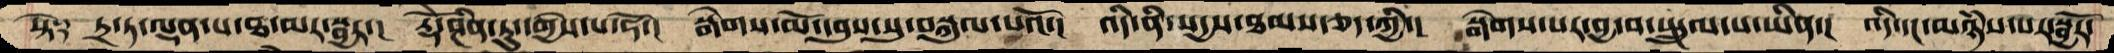སྟེ༑  ཏྲ་ཏ་ལྡན་པ་ཐ་མར་སྦྱར་།  རྡོེ་ཤིན་ཏུ་དགྱེས་པ་ཧོ་།  སྒེགས་མོ་དབུས་སུ་བསྐུལ་པའོ་།  འདི་ནི་སདྱས་ཐམས་ཅད་ཀྱི་།  སྒེགས་པར་བྱ་བ་སྤྲུལ་པ་ཡིན་།  འདི་དང་མཉཾས་པར་སྦྱོར་
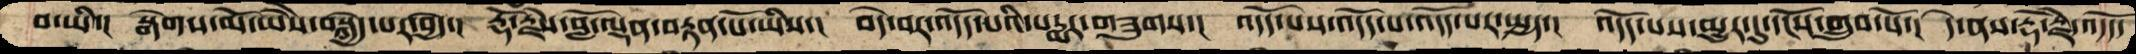བ་ཡི་།  སྒེགས་མོ་ཡཻས་བསྐྱེད་པར་བྱེད་།  རྡོ་རྗེས་བློ་ལྡན་བརྟན་པོ་ཡིས་།  བདེ་བར་འདོད་པའི་པདྨར་གཟུགས་།  འདོད་པས་འདོད་པ་འདོད་པར་སྤྱད་།  འདོད་པས་མྱུར་དུ་དངོས་གྲུབ་པོ་།  དེ་ནས་རྡོ་རྗེ་འདོད་
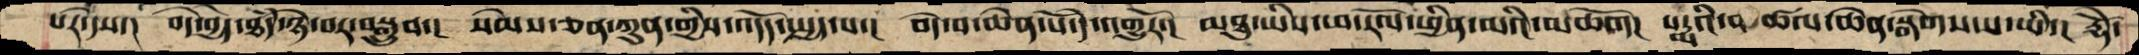པར་དེས་།  བདེ་བྱེད་ཐཾད་ཉེ་བར་བསྒྲུབ་།  སེམས་ཅན་ཀུན་གྱིས་འདོད་སྤྱད་པ་།  བདེ་བ་ཆེན་པོ་དེ་འགྱུརོ་།  མཐུ་ཡིས་ཕ་རོལ་ཕྱིན་མའི་མཆོག།  པདྨའི་ཚལ་ཆེན་སྒེགས་པ་ཡི་།  རྡོེ་
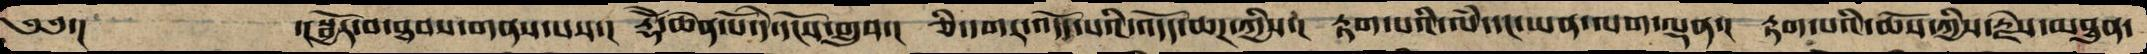༄༅་།         ་།སྦྱོར་བ་ཐབས་གནས་པས་།  རྡོེ་ཆེན་པོ་དེ་དངོས་གྲུབ་།  ཅི་དགར་འདོད་པའི་འདོད་ཆཌ་ཀྱིས་།  རྟག་པའི་ལཾ་དང་ཡན་ལག་ལྡན་།  རྟག་པའི་ཆོས་ཀྱིས་རྗེས་མཐུན་
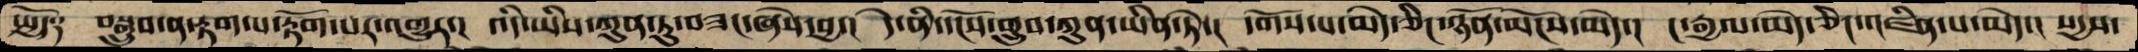སྤྱོད༑  བསྒྲུབ་ན་རྟག་པ་རྟོག་པར་འགྱུར་།  འདི་ཡིས་ཀུན་ཏུ་བཟང་ཞེས་བྱ་།  དེ་ནི་དངོས་གྲུབ་ཀུན་ཡིན་ཏེ་།  དགོས་པ་མེད་ཅིང་ཉོན་མོངས་མེད་།  ང་རྒྱལ་མེད་ཅིང་འཛིན་པ་མེད་།  སདྱས་
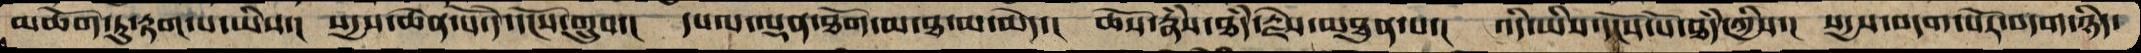མཆོག་ཏུ་རྟག་པ་ཡིས་།  སདྱས་ཆེན་པོ་དེ་དངོས་གྲུབ་།  དཔལ་ལྡན་ཐོག་མ་ཐ་མ་མེད་།  ཆོས་རྣཾས་ཐཾད་རྗེས་མཐུན་པ་།  འདི་ཡིས་དངོས་པོ་ཐཾད་ཀྱིས་།  སདྱས་བདག་པོར་བདག་ཉིད་
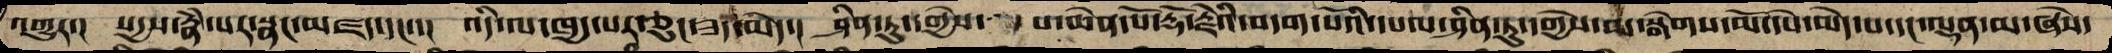འགྱུར་།  སདྱས་རྣཾ་པར་སྣང་མཛད་དང་་།  འདི་ལ་ཁྱད་པར་ཅུང་ཟད་མེད་།  ཤིན་ཏུ་འགྱེས་  པ་ཆེན་པོ་རྡོ་རྗེའི་བདག་པོའི་དཔལ་ཤིན་ཏུ་དགྱེས་མ་སྒེགས་མོ་དཔེ་མེད་པ་དང་ལྡན་མ་ཞེས་
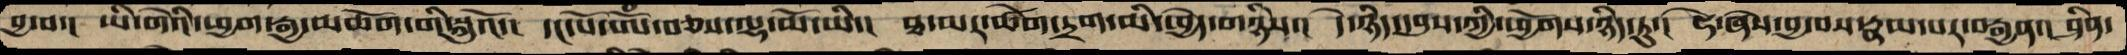བྱ་བ་།  ཡི་གེའི་ཕྱག་རྒྱ་མཆོག་གི་སྐུའོ་།  དང་པོ་ཨོཾ་བཅས་ལྷ་མོ་ཡི་།  ཐ་མར་ཚེག་དྲག་མི་ཕྱེད་གཉིས་།  དེ་ཉིད་དབུས་ཀྱི་ཕྱོགས་ཉིད་ཏུ་།  ཧེ་ཞེས་བྱ་བས་རྣམ་པར་བརྒྱན་། ཤིན་
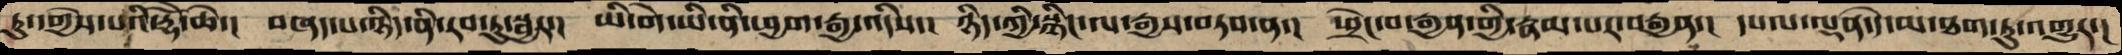ཏུ་དགྱེས་པའི་རྡོེ་ཆེ་།  བཞད་པ་ཉིད་ནི་རབ་ཏུ་སྦྱར་།  ཡི་གེ་ཡི་ནི་ཕྱག་རྒྱ་འདིས་།  ཉིད་ཀྱི་སྙིང་ལ་རྒྱས་བཏབ་ན་།  ཕྲེང་བ་རྒྱན་གྱི་རྣམ་པར་བརྒྱན་།  དཔལ་ལྡན་དེ་མ་ཐག་ཏུ་འགྱུར་།
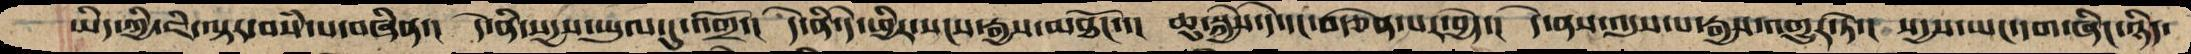ཡིད་ཀྱི་ཇི་ལྟར་བསཾ་པ་བཞིན་།  དེ་ནི་སདྱས་ཡུལ་དུའགྲོ་།  དེ་ནི་དེ་ཕྱིར་སངས་རྒྱས་མཐོང་་།  ཆུ་སྐྱེས་དེ་དང་བརྩོན་པར་བྱེད་།  དེ་ནས་འདུས་པ་རྒྱས་འགྱུར་ཏེ་།  སདྱས་ཡང་དག་ཞིང་ཉིད་
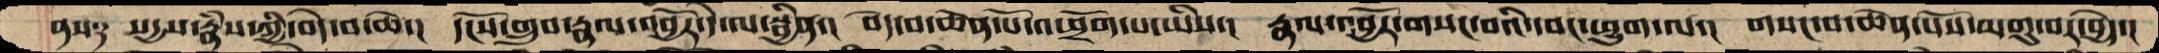ནས༑  སདྱས་རྣཾས་ཀྱི་བདེ་བ་ཆེ་།  དངོས་གྲུབ་རྣལ་འབྱོར་དེ་ལ་སྦྱིན་། བདེ་བ་ཆེན་པོ་འཕྲོག་པ་ཡིས་།  རྣལ་འབྱོར་གསང་བའི་དབང་ཕྱུག་ལ་།  གསང་བ་ཆེན་པོས་མགུ་བར་བྱེད་།
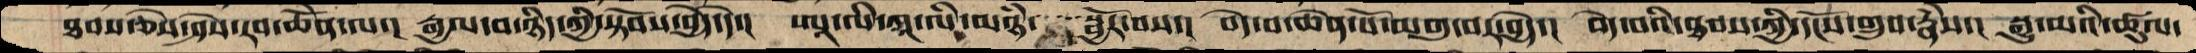ཐབས་ཅེས་ཤེས་རབ་ཆེནོ་ལ་།  རྒྱལ་བ་ཉིད་ཀྱི་སྟོབས་བྱེད་དེ་།  ཨཱ་ལི་ཀཱ་ལི་མཉཾ་  སྦྱོར་བས་།  བདེ་བ་ཆེན་པོ་མགུ་བར་བྱེད་།  བདེ་བའི་ཐབས་ཀྱི་དངོས་གྲུབ་རྣཾས་།  སྒྱུ་མའི་ཚུལ་
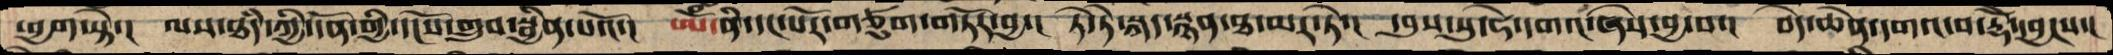ཕྱག་སྟེ་།  ལས་ཐདཾ་ཀྱི་དོན་གྱི་དངོས་གྲུབ་སྦྱིན་པའོ་།  ཨོཾ་ནི་དང་པོར་གཙུག་གཏོར་བྱ་།  ཏེ་ཏེ་སྐད་སྙན་ཐ་མར་ཏེ་།  དབུས་སུ་ཧེ་དགའ་ཞེས་བྱ་བ་།  བདེ་ཆེན་དགའ་བ་རྡོེ་དབྱངས་།
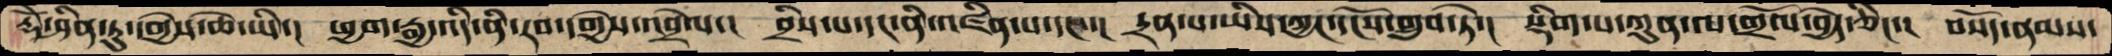རྡོེ་ཤིན་ཏུ་དགྱེས་ཆེ་ཡི་།  ཕྱག་རྒྱ་འདི་ནི་རབ་དགྱེས་འབྲེལ་།  བྲིས་པ་དང་ནི་འཛིན་པ་དང་་།  དྲན་པ་ཡིས་ཀྱང་དངོས་གྲུབ་ཏེ་།  སྡིག་པ་ཀུན་ལ་གྲོལ་བྱེད་ཅིང་་།   བསོད་ནམས་
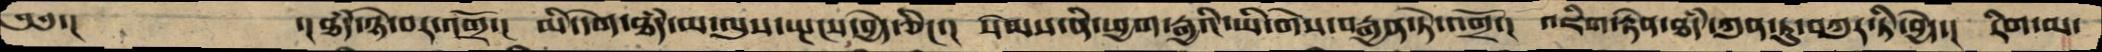༄༅་།     ་།ཐཾད་ཉེ་བར་འགྲོ་།  མི་དགེ་ཐཾད་མ་ལུས་སྤངས་བྱེད་ཅིང་།  སེམས་ནི་ཕྱག་རྒྱའི་ཡི་གེས་བརྒྱན་ཏེ་འགྲོ་།  འཇིག་རྟེན་ཐཾད་ཀུན་ཏུ་བཀུར་ཏི་བྱེད་།  རིག་མ་
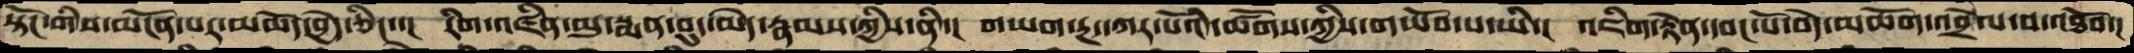སྟིང་གིས་མངོན་པར་མཆོད་བྱེད་ཅིང་་།  རིག་འཛིན་མུ་སྨན་བུད་མེད་རྣམས་ཀྱིས་ནི་།  གཡག་རྔ་དཀར་པོའི་ཚོགས་ཀྱིས་གཡོབ་པ་ཡི་།  འཇིག་རྟེན་དབང་པོ་བདེ་མཆོག་འབྲེལ་བ་འཐོབ་།
